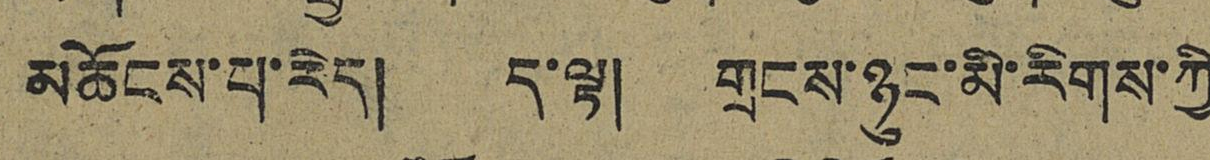མཆོངས་པ་རེད། ད་ལྟ། གྲངས་ཉུང་མི་རིགས་ཀྱི
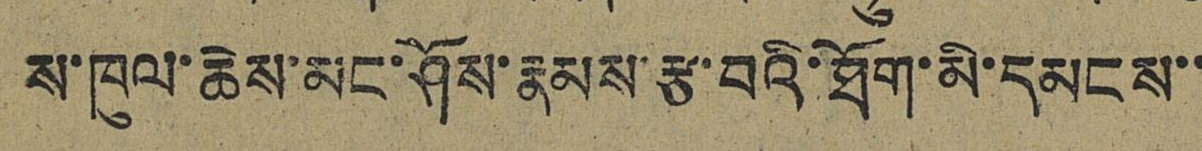ས་ཁུལ་ཆེས་མང་ཤོས་རྣམས་རྩ་བའི་ཐོག་མི་དམངས་་
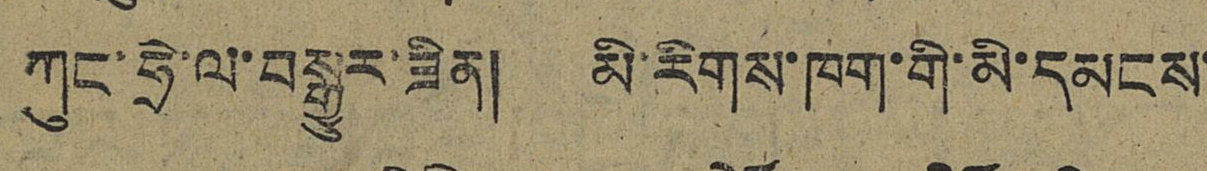ཀུང་ཧྲེ་ལ་བསྒྱུར་ཟིན། མི་རིགས་ཁག་གི་མི་དམངས་
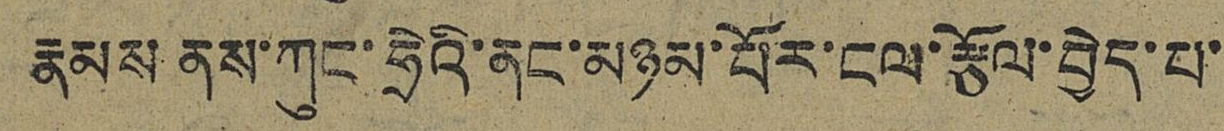རྣམས ནས་ཀུང་ཧྲེའི་ནང་མཉམ་པོར་ངལ་རྩོལ་བྱེད་པ་
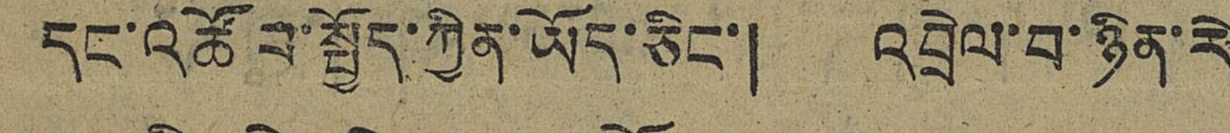དང་འཚོབ་སྤྱོད་ཀྱིན་ཡོད་ཅིང་། འབྲེལ་བ་ཉིན་རེ
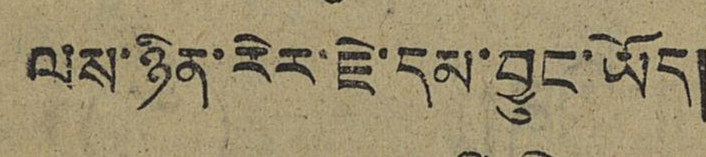ལས་ཉིན་རེར་ཇེ་དམ་བྱུང་ཡོད།
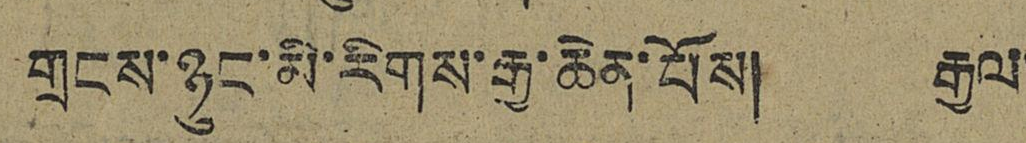གྲངས་ཉུང་མི་རིགས་རྒྱ་ཆེན་པོས། རྒྱལ་
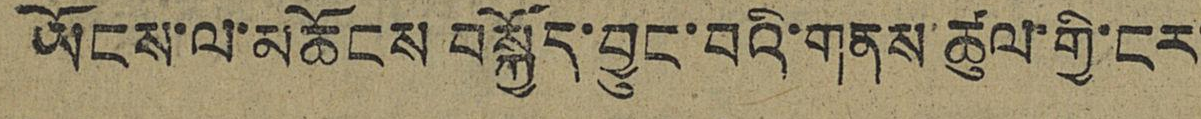ཡོངས་ལ་མཆོངས བསྐྱོད་བྱུང་བའི་གནས་ཚུལ་གྱི་ངར་
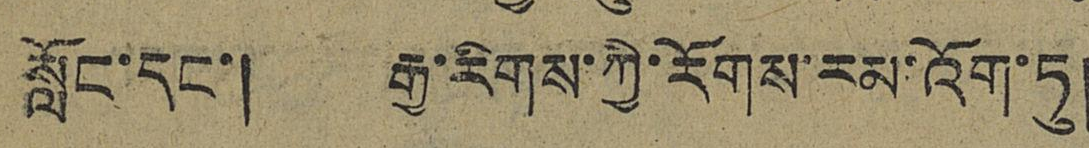སློང་དང་། རྒྱ་རིགས་ཀྱི་རོགས་རམ་འོག་ཏུ།
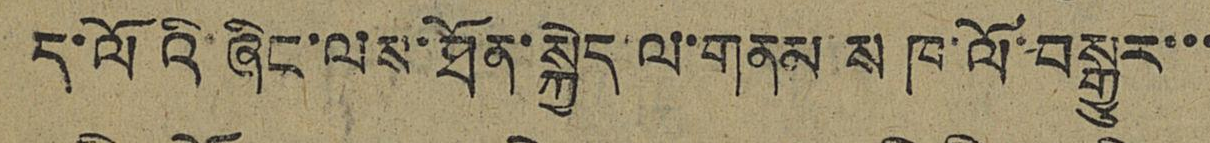ད་ལོའི་ཞིང་ལས་ཐོན་སྐྱེད་ལ་གནམ་ས ཁ་ལོ་བསྒྱུར་་་
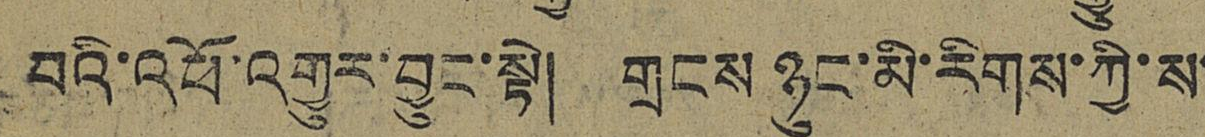བའི་འཕོ་འགྱུར་བྱུང་སྟེ། གྲངས ཉུང་མི་རིགས་ཀྱི་ས་
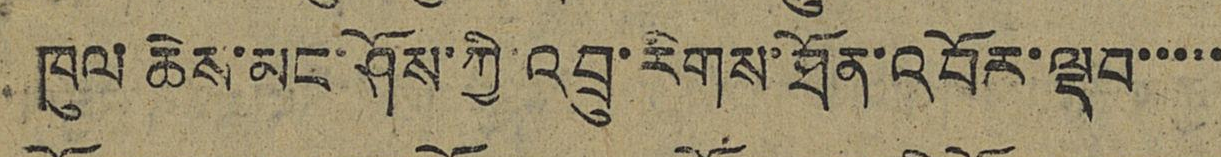ཁུལ ཆེས་མང་ཤོས་ཀྱི་འབྲུ་རིགས་ཐོན་འབོར་ལྡབ་་་་་
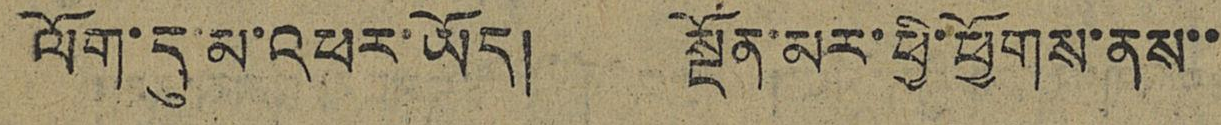ལོག་དུ་མ་འཕར་ཡོད། སྔོན་མར་ཕྱི་ཕྱོགས་ནས་་
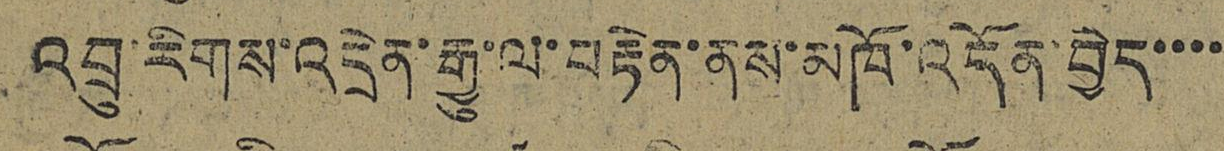འབྲུ་རིགས་འདྲེན་རྒྱུ་ལ་བརྟེན་ནས་མཁོ་འདོན་བྱེད་་་་་
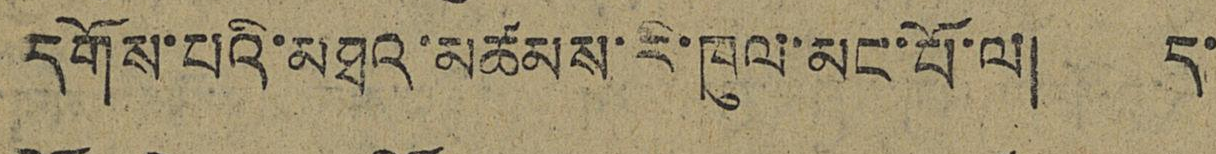དགོས་པའི་མཐའ་མཚམས་རི་ཁུལ་མང་པོ་ལ། ད་
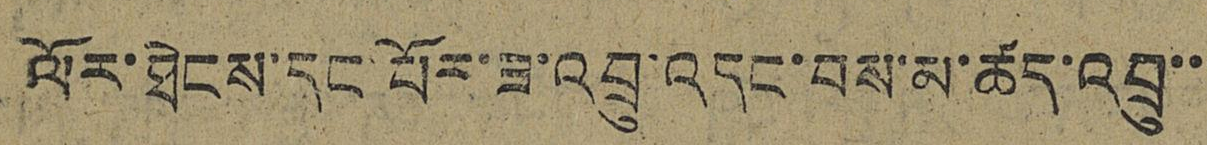ལོར་ཐེངས་དང་པོར་ཟ་འབྲུ་འདང་བས་མ་ཚད་འབྲུ་་་
